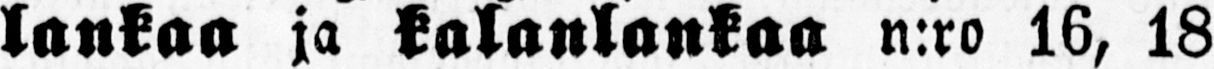lankaa ja kalanlankaa n:ro 16, 18
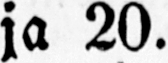ja 20.
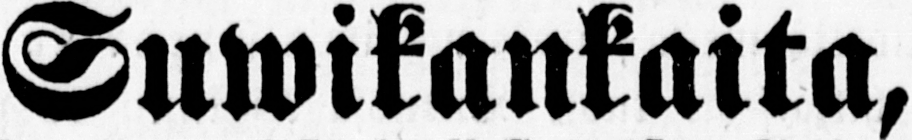Suwikankaita,
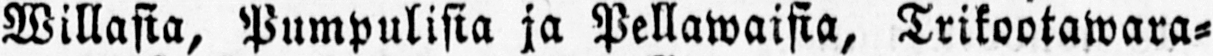Willasta, Pumpulisia ja Pellawaisia, Trikootawara-
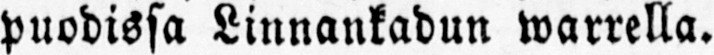puodissa Linnankadun warrella.
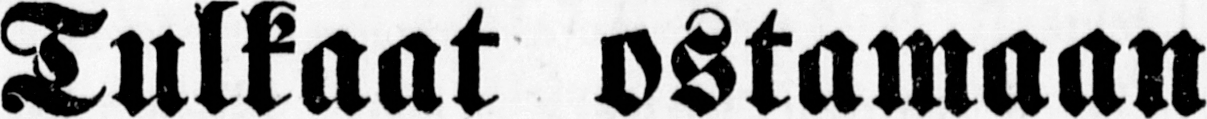Tulkaat ostamaan
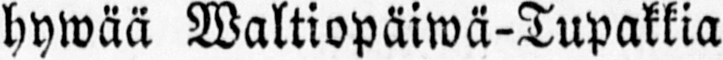hywää Waltiopäiwä-Tupakkia
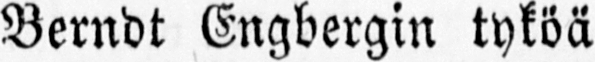Berndt Engbergin tyköä
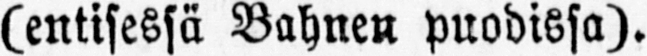(entisessä Bahnen puodissa).
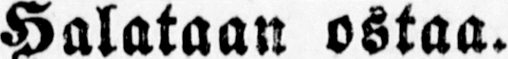Halataan ostaa.
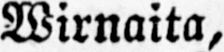Wirnaita,
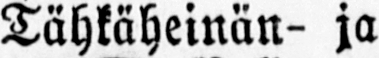Tähkäheinän- ja
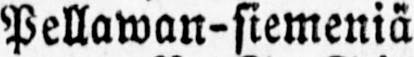Pellawan-siemeniä
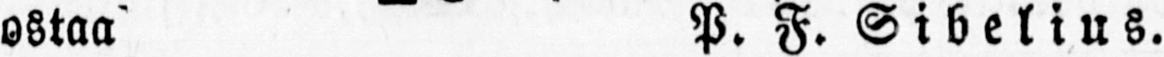ostaa P. F. Sibelius.
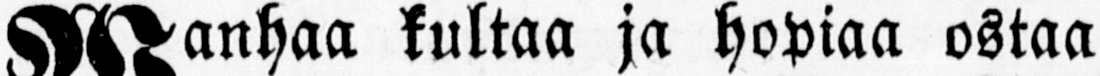Wanhaa kultaa ja hopiaa ostaa
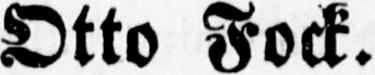Otto Fock.
